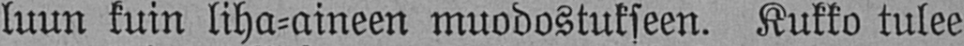luun kuin liha-aineen muodostukseen. Kukko tulee
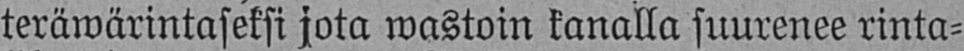teräwärintaseksi jota wastoin kanalla suurenee rinta-
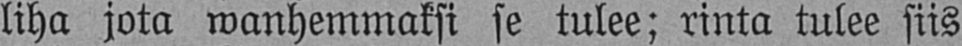liha jota wanhemmaksi se tulee; rinta tulee siis
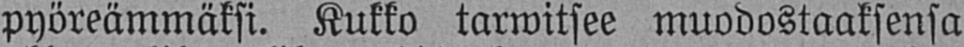pyöreämmäksi. Kukko tarwitsee muodostaaksensa
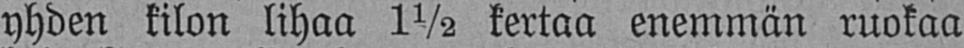yhden kilon lihaa 1½ kertaa enemmän ruokaa
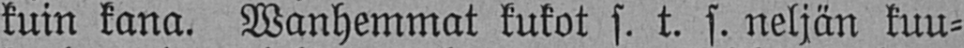kuin kana. Wanhemmat kukot s. t. s. neljän kuu-
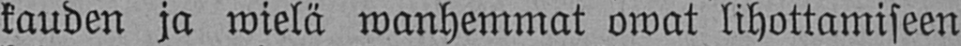kauden ja wielä wanhemmat owat lihottamiseen
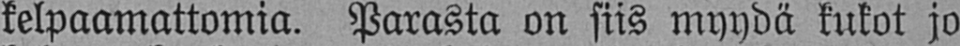kelpaamattomia. Parasta on siis myydä kukot jo
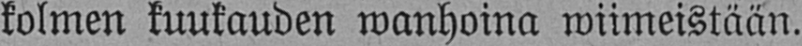kolmen kuukauden wanhoina wiimeistään.
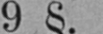9 §.
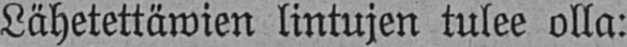Lähetettäwien lintujen tulee olla:
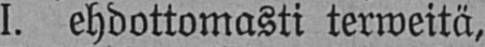I. ehdottomasti terweitä,
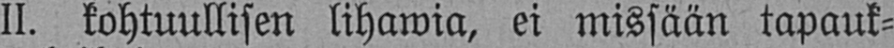II. kohtuullisen lihawia, ei missään tapauk-
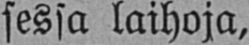sessa laihoja,
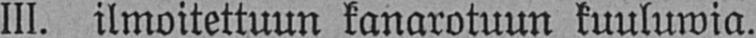III. ilmoitettuun kanarotuun kuuluwia.
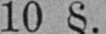10 §.
